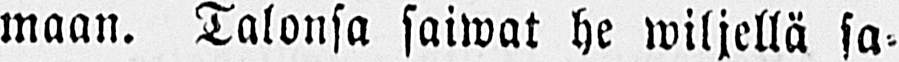maan. Talonsa saiwat he wiljellä sa-
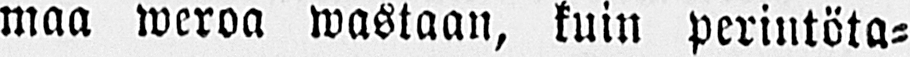maa weroa wastaan, kuin perintöta-
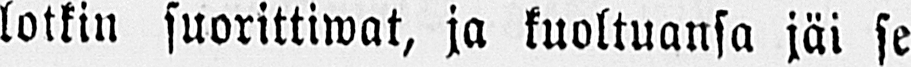lotkin suorittiwat, ja kuoltuansa jäi se
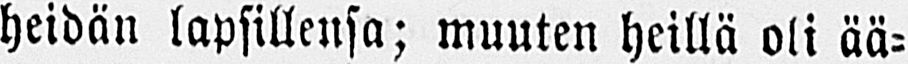heidän lapsillensa; muuten heillä oli ää-
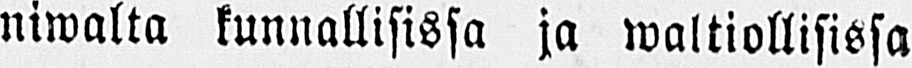niwalta kunnallisissa ja waltiollisissa
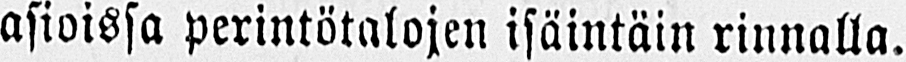asioissa perintötalojen isäintäin rinnalla.
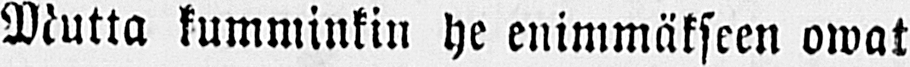Mutta kumminkin he enimmäkseen owat
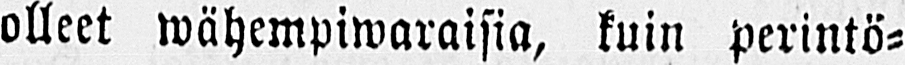olleet wähempiwaraisia, kuin perintö-
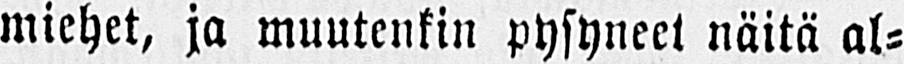miehet, ja muutenkin pysyneet näitä al-
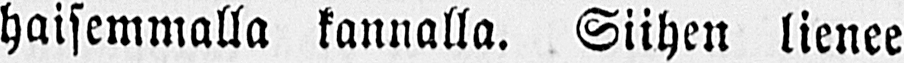haisemmalla kannalla. Siihen lienee
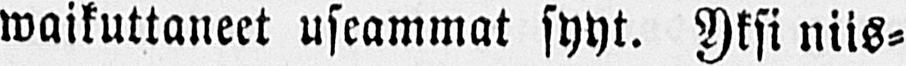waikuttaneet useammat syyt. Yksi niis-
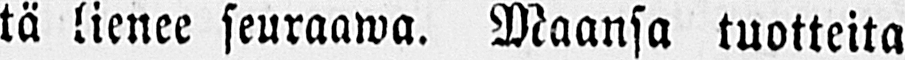tä lienee seuraawa. Maansa tuotteita
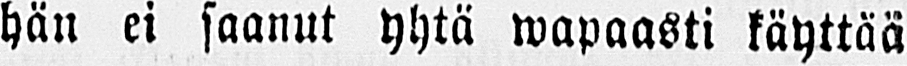hän ei saanut yhtä wapaasti käyttää
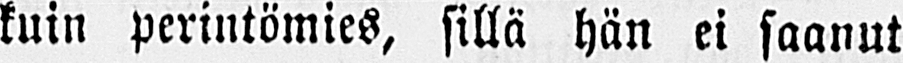kuin perintömies, sillä hän ei saanut
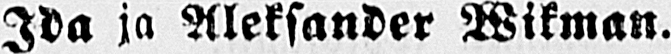Ida ja Aleksander Wikman.
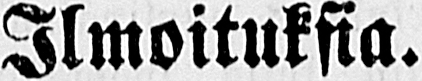Ilmoituksia.
